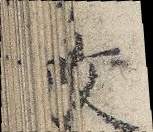文
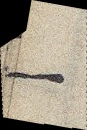一
